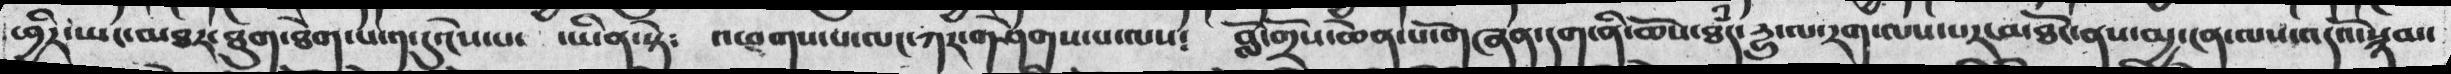ཕྱིར་ཡང་མཐར་ཐུག་ཐེག་པ་༡་དུ་ངེས་པ་  ་ཡིན་སྟེ༴  འཕགས་པ་ལང་ཀར་གཤེགས་པ་ལས༴  བློ་གྲོས་ཆེན་པོ་གཞན་དག་ནི་ཆོས་ཐཾད་རྱུ་ལ་རག་ལས་པར་མཐོང་ནས་མྱ་ངན་ལས་འདའོ་སྙམ་
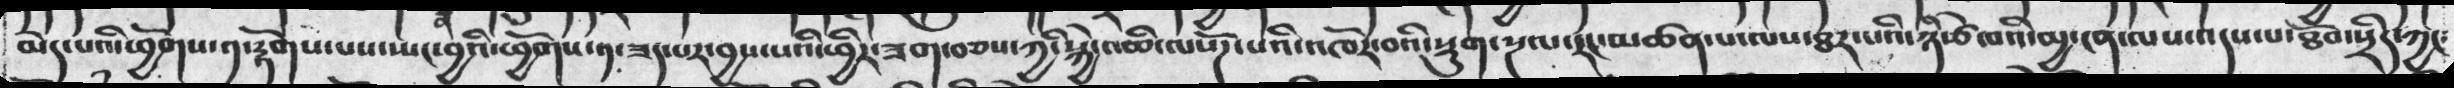མེད་པའི་ཕྱོགས་༡་རྟོགས་པས་སྤང་བྱའི་ཕྱོགས་༡་ཟད་པར་བྱས་པའི་ཕྱིར་ཟག་བཅས་ཀྱི་སྐྱེ་འཆི་ལསོཌ་པའི་འཁོར་བའི་སྡུག་སྔལ་རང་མཚན་པ་ལས་ཐར་པའི་ཉི་ཙེ་བའི་མྱ་ངན་ལས་འདས་པ་ཐོབ་སྲིད་ཀྱང༴
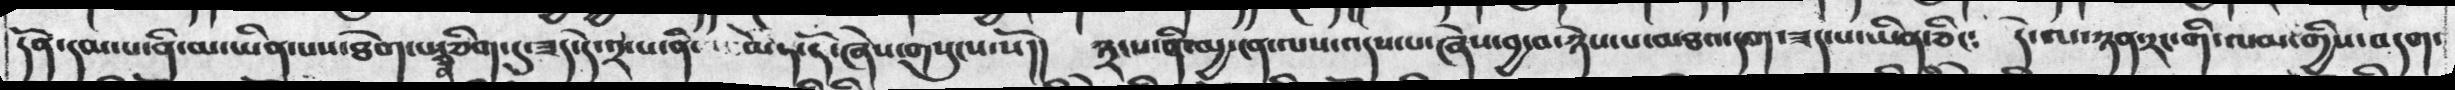དོན་དམ་པ་ནི་མ་ཡིན་པས་ཐེག་པ་ནི་ཅིག་ཏུ་ཟད་དེ་༢་པ་ནི    མེད་དོ་ཞེས་གསུངས་སོ།།  ༣་པ་ན་མྱ་ངན་ལས་འདས་པ་ཞེས་བྱ་བ་ཉེས་པ་མཐའ་དག་ཟད་པ་ཡིན་ཅིང༴   དེ་ལ་ཉན་རང་གི་ལམ་གྱིས་བདག་
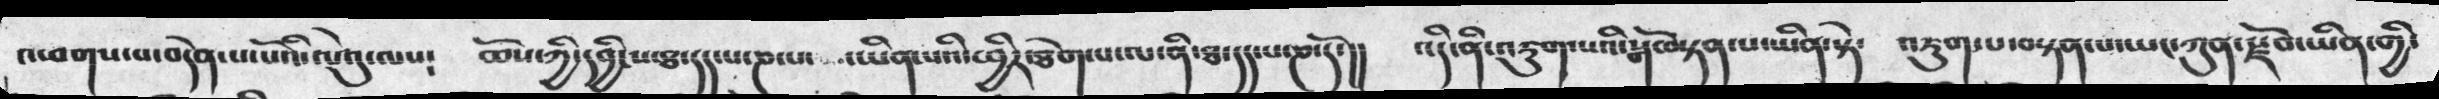འཕགས་པ་བདེན་པ་པོའི་ལེའུ་ལས༴  ཆོས་ཀྱི་དབྱིངས་ཐ་དད་པ་ཎ་པ་  ་ཡིན་པའི་ཕྱིར་ཐེག་པ་ལ་ནི་ཐ་དད་པ་ཎ་དོ་།།  འདི་ནི་འཇུག་པའི་སྒོ་བསྟན་པ་ཡིན་སྟེ་  འཇུག་པ་བསྟན་པ་ཡང་ཀུན་སྫོབ་ཡིན་གྱི་
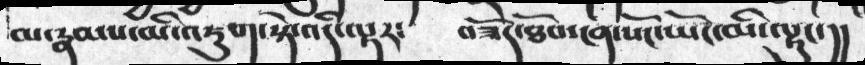མ་རྣམས་མི་འཇུག་སྟེ་འདི་ལྟར༴ བཟོད་ཐོབ་ངན་སོང་ཡོངས་མི་ལྟུང་།།
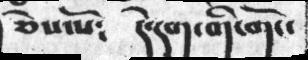ཅེསོ༴ དེ་དག་གི་གོང་
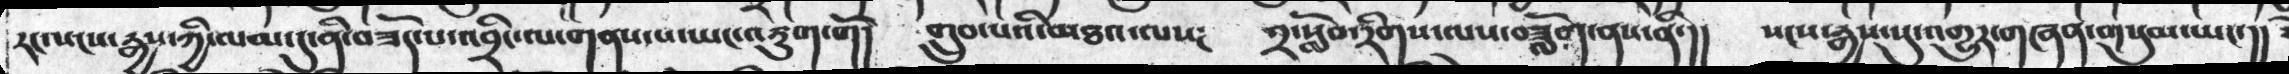རང་སངས་རྒྱས་ཀྱི་ལམ་དུ་ནི་བཟོད་པ་འབྲིང་ལ་གནས་པ་ཡང་འཇུག་གོ། གྲུབ་པའི་མཐའ་ལས༴ ༢་སློབ་རིགས་ལས་བཟློག་ནས་ནི་།། སངས་རྒྱས་སུ་འགྱུར་གཞན་གསུམ་ཡང་།།
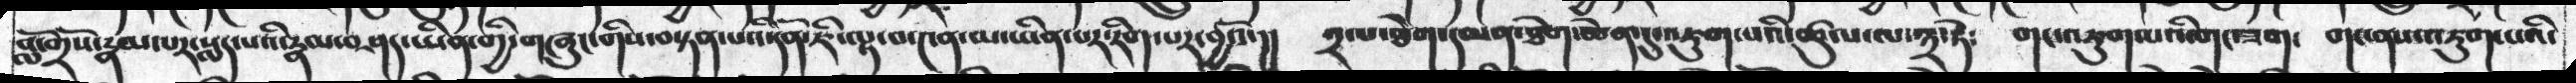བློ་གྲོས་རྣམ་པར་སླད་པའི་རྣམ་བཤད་ཡིན་གྱི་གཞུང་གིས་བསྟན་པའི་དོན་ཇི་ལྟ་བ་༤ན་མ་ཡིན་པར་རིག་པར་བྱའོ་།།  ༢་པ་ཐེག་དམན་ཐེག་ཆེན་དུ་འཇུག་པའི་ཚུལ་ལ་༣་ཏེ༴  གང་འཇུག་པའི་གང་ཟག་  གང་ནས་འཇུག་པའི་
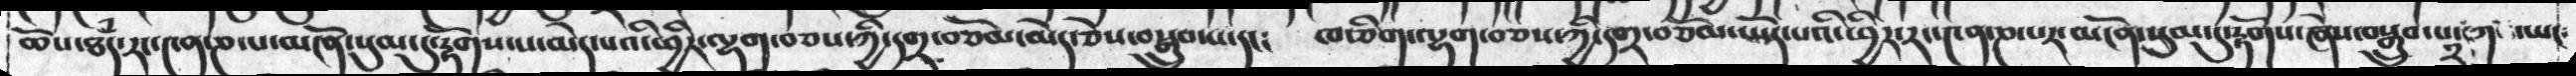ཆོས་ཐཾད་རང་༤ན་ཎ་པ་མངོན་སུམ་དུ་རྟོགས་པ་མེད་པའི་ཕྱིར་ལྷག་བཅས་ཀྱི་དགྲ་བཅོམ་མེད་ཅེས་བསྒྲུབ་པ་དང༴   ཁ་ཅིག་ལྷག་བཅས་ཀྱི་དགྲ་བཅོམ་ཡོད་པའི་ཕྱིར་རང་༤ན་ཎ་པར་མངོན་སུམ་དུ་རྟོགས་ཞེས་བསྒྲུབ་པ་༢་ཀ་ཡང༴
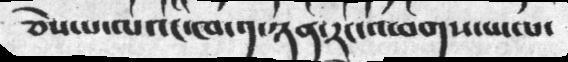ཅེས་པ་ལའང་ཁ་༡་ཉན་རང་འཕགས་པ་ལ་
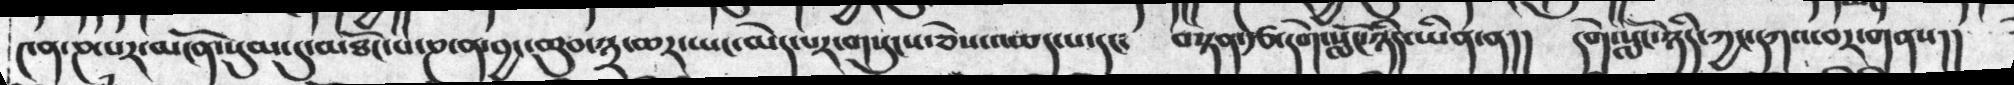༤ན་ཎ་པར་མངོན་སུམ་དུ་མཐོང་པ་ཎ་ན་བྱང་ཆུབ་༣་ཆར་ཡང་མེད་པར་གསུངས་ཅེས་འཆད་པ་དང༴ བསྟན་རྩ་དགེ་སློང་ཉིད་ཡིན་ན།། དགེ་སློང་ཉིད་ཀྱང་དཀའ་བར་གནས།།
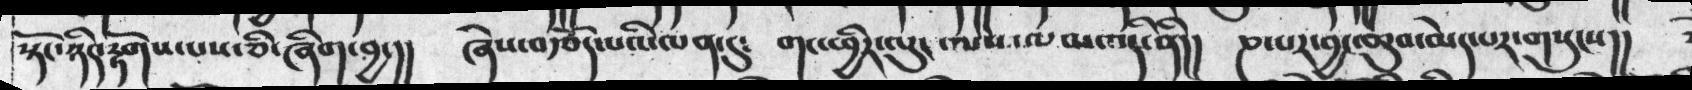སྟོང་ཉིད་རྟོགས་པས་ཅི་ཞིག་བྱ་།།  ཞེས་བརྩོད་པའི་ལན་དུ༴  གང་ཕྱིར་ལུང་ལས་ལམ་འདི་ནི།།  ཎ་པར་བྱང་ཆུབ་མེད་པར་གསུངས།།
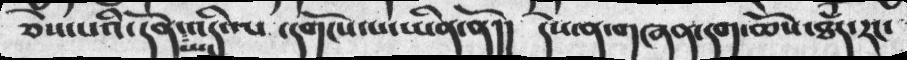ཅེས་པའི་དོན་ཡང་འདི་ལ་དགོངས་པ་ཡིན་ནོ།།  དེས་ན་གཞན་དག་ཆོས་ཐཾད་རང་
